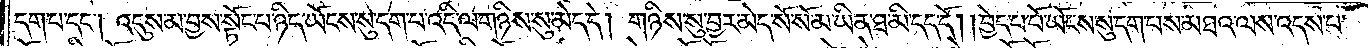དག་པ་དང༌། འདུས་མ་བྱས་སྟོང་པ་ཉིད་ཡོངས་སུ་དག་པ་འདི་ལ་གཉིས་སུ་མེད་དེ། གཉིས་སུ་བྱར་མེད་སོ་སོ་མ་ཡིན་ཐ་མི་དད་དོ། །བྱེད་པ་པོ་ཡོངས་སུ་དག་པས་མཐའ་ལས་འདས་པ་
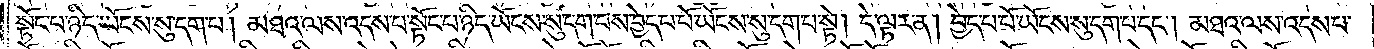སྟོང་པ་ཉིད་ཡོངས་སུ་དག་པ། མཐའ་ལས་འདས་པ་སྟོང་པ་ཉིད་ཡོངས་སུ་དག་པས་བྱེད་པ་པོ་ཡོངས་སུ་དག་པ་སྟེ། དེ་ལྟར་ན། བྱེད་པ་པོ་ཡོངས་སུ་དག་པ་དང༌། མཐའ་ལས་འདས་པ་
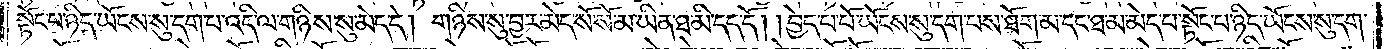སྟོང་པ་ཉིད་ཡོངས་སུ་དག་པ་འདི་ལ་གཉིས་སུ་མེད་དེ། གཉིས་སུ་བྱར་མེད་སོ་སོ་མ་ཡིན་ཐ་མི་དད་དོ། །བྱེད་པ་པོ་ཡོངས་སུ་དག་པས་ཐོག་མ་དང་ཐ་མ་མེད་པ་སྟོང་པ་ཉིད་ཡོངས་སུ་དག་
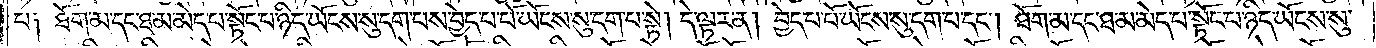པ། ཐོག་མ་དང་ཐ་མ་མེད་པ་སྟོང་པ་ཉིད་ཡོངས་སུ་དག་པས་བྱེད་པ་པོ་ཡོངས་སུ་དག་པ་སྟེ། དེ་ལྟར་ན། བྱེད་པ་པོ་ཡོངས་སུ་དག་པ་དང༌། ཐོག་མ་དང་ཐ་མ་མེད་པ་སྟོང་པ་ཉིད་ཡོངས་སུ་
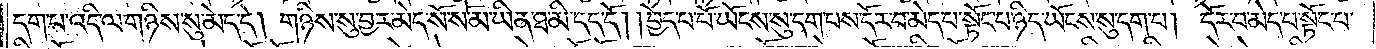དག་པ་འདི་ལ་གཉིས་སུ་མེད་དེ། གཉིས་སུ་བྱར་མེད་སོ་སོ་མ་ཡིན་ཐ་མི་དད་དོ། །བྱེད་པ་པོ་ཡོངས་སུ་དག་པས་དོར་བ་མེད་པ་སྟོང་པ་ཉིད་ཡོངས་སུ་དག་པ། དོར་བ་མེད་པ་སྟོང་པ་
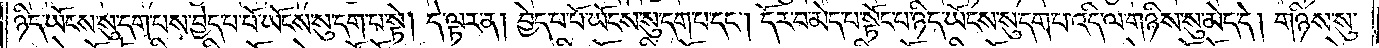ཉིད་ཡོངས་སུ་དག་པས་བྱེད་པ་པོ་ཡོངས་སུ་དག་པ་སྟེ། དེ་ལྟར་ན། བྱེད་པ་པོ་ཡོངས་སུ་དག་པ་དང༌། དོར་བ་མེད་པ་སྟོང་པ་ཉིད་ཡོངས་སུ་དག་པ་འདི་ལ་གཉིས་སུ་མེད་དེ། གཉིས་སུ་
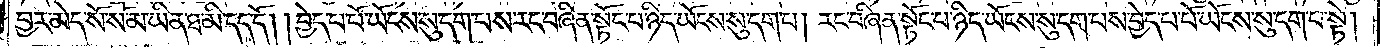བྱར་མེད་སོ་སོ་མ་ཡིན་ཐ་མི་དད་དོ། །བྱེད་པ་པོ་ཡོངས་སུ་དག་པས་རང་བཞིན་སྟོང་པ་ཉིད་ཡོངས་སུ་དག་པ། རང་བཞིན་སྟོང་པ་ཉིད་ཡོངས་སུ་དག་པས་བྱེད་པ་པོ་ཡོངས་སུ་དག་པ་སྟེ།
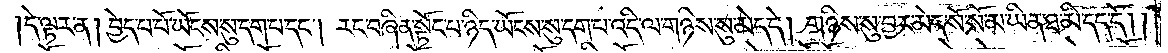དེ་ལྟར་ན། བྱེད་པ་པོ་ཡོངས་སུ་དག་པ་དང༌། རང་བཞིན་སྟོང་པ་ཉིད་ཡོངས་སུ་དག་པ་འདི་ལ་གཉིས་སུ་མེད་དེ། གཉིས་སུ་བྱར་མེད་སོ་སོ་མ་ཡིན་ཐ་མི་དད་དོ། །
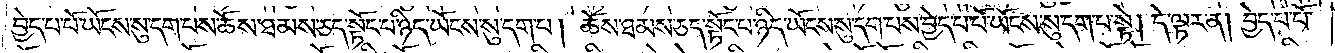བྱེད་པ་པོ་ཡོངས་སུ་དག་པས་ཆོས་ཐམས་ཅད་སྟོང་པ་ཉིད་ཡོངས་སུ་དག་པ། ཆོས་ཐམས་ཅད་སྟོང་པ་ཉིད་ཡོངས་སུ་དག་པས་བྱེད་པ་པོ་ཡོངས་སུ་དག་པ་སྟེ། དེ་ལྟར་ན། བྱེད་པ་པོ་
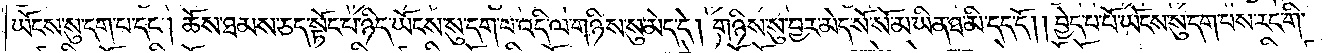ཡོངས་སུ་དག་པ་དང༌། ཆོས་ཐམས་ཅད་སྟོང་པ་ཉིད་ཡོངས་སུ་དག་པ་འདི་ལ་གཉིས་སུ་མེད་དེ། གཉིས་སུ་བྱར་མེད་སོ་སོ་མ་ཡིན་ཐ་མི་དད་དོ། །བྱེད་པ་པོ་ཡོངས་སུ་དག་པས་རང་གི་
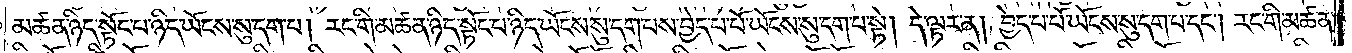མཚན་ཉིད་སྟོང་པ་ཉིད་ཡོངས་སུ་དག་པ། རང་གི་མཚན་ཉིད་སྟོང་པ་ཉིད་ཡོངས་སུ་དག་པས་བྱེད་པ་པོ་ཡོངས་སུ་དག་པ་སྟེ། དེ་ལྟར་ན། བྱེད་པ་པོ་ཡོངས་སུ་དག་པ་དང༌། རང་གི་མཚན་
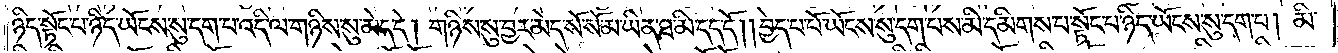ཉིད་སྟོང་པ་ཉིད་ཡོངས་སུ་དག་པ་འདི་ལ་གཉིས་སུ་མེད་དེ། གཉིས་སུ་བྱར་མེད་སོ་སོ་མ་ཡིན་ཐ་མི་དད་དོ། །བྱེད་པ་པོ་ཡོངས་སུ་དག་པས་མི་དམིགས་པ་སྟོང་པ་ཉིད་ཡོངས་སུ་དག་པ། མི་
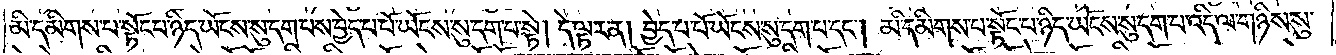མི་དམིགས་པ་སྟོང་པ་ཉིད་ཡོངས་སུ་དག་པས་བྱེད་པ་པོ་ཡོངས་སུ་དག་པ་སྟེ། དེ་ལྟར་ན། བྱེད་པ་པོ་ཡོངས་སུ་དག་པ་དང༌། མི་དམིགས་པ་སྟོང་པ་ཉིད་ཡོངས་སུ་དག་པ་འདི་ལ་གཉིས་སུ་
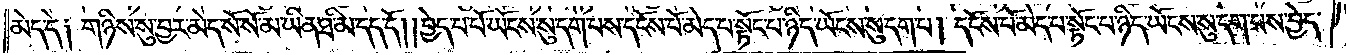མེད་དེ། གཉིས་སུ་བྱར་མེད་སོ་སོ་མ་ཡིན་ཐ་མི་དད་དོ། །བྱེད་པ་པོ་ཡོངས་སུ་དག་པས་དངོས་པོ་མེད་པ་སྟོང་པ་ཉིད་ཡོངས་སུ་དག་པ། དངོས་པོ་མེད་པ་སྟོང་པ་ཉིད་ཡོངས་སུ་དག་པས་བྱེད་
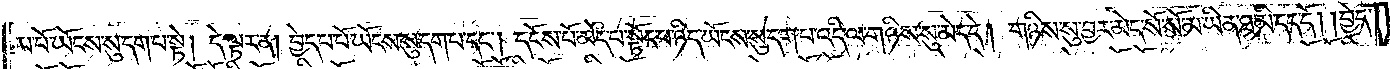པ་པོ་ཡོངས་སུ་དག་པ་སྟེ། དེ་ལྟར་ན། བྱེད་པ་པོ་ཡོངས་སུ་དག་པ་དང༌། དངོས་པོ་མེད་པ་སྟོང་པ་ཉིད་ཡོངས་སུ་དག་པ་འདི་ལ་གཉིས་སུ་མེད་དེ། གཉིས་སུ་བྱར་མེད་སོ་སོ་མ་ཡིན་ཐ་མི་དད་དོ། །བྱེད་
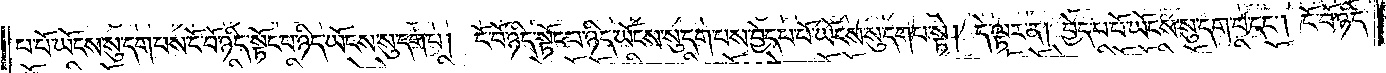པ་པོ་ཡོངས་སུ་དག་པས་ངོ་བོ་ཉིད་སྟོང་པ་ཉིད་ཡོངས་སུ་དག་པ། ངོ་བོ་ཉིད་སྟོང་པ་ཉིད་ཡོངས་སུ་དག་པས་བྱེད་པ་པོ་ཡོངས་སུ་དག་པ་སྟེ། དེ་ལྟར་ན། བྱེད་པ་པོ་ཡོངས་སུ་དག་པ་དང༌། ངོ་བོ་ཉིད་
